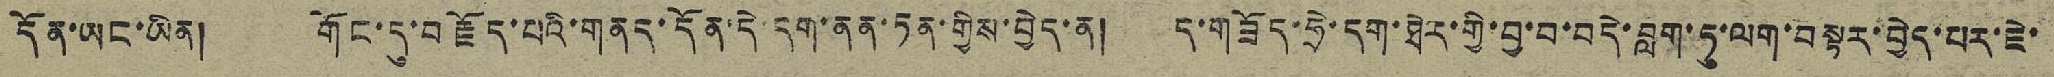དོན་ཡང་ཡིན། གོང་དུ་བརྗོད་པའི་གནད་དོན་དེ་དག་ནན་ཏན་གྱིས་བྱེད་ན། ད་གཟོད་ཧྲེ་དག་ཐེར་གྱི་བྱ་བ་བདེ་བླག་ཏུ་ལག་བསྟར་བྱེད་པར་ཇེ་
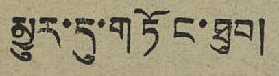མྱུར་དུ་གཏོང་ཐུབ།
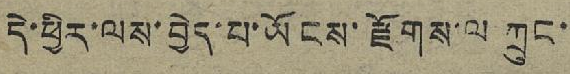དེ་ཕྱིར་ལས་བྱེད་པ་ཡོངས་རྫོགས་ལ་ཀྲུང་
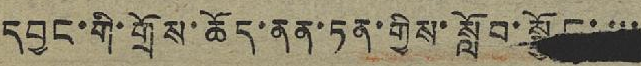དབྱང་གི་གྲོས་ཆོད་ནན་ཏན་གྱིས་སློབ་སྦྱོང་་་་
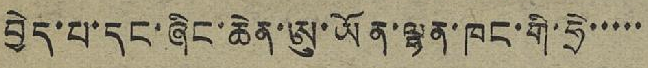བྱེད་པ་དང་ཞིང་ཆེན་ཨུ་ཡོན་ལྷན་ཁང་གི་ཧྲེ་་་་་
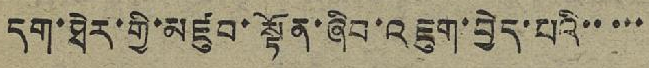དག་ཐེར་གྱི་མཛུབ་སྟོན་ཞིབ་འཇུག་བྱེད་པའི་་་་་
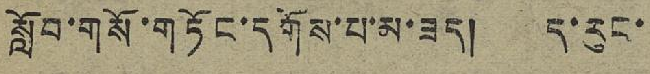སློབ་གསོ་གཏོང་དགོས་པ་མ་ཟད། ད་རུང་
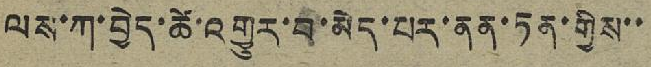ལས་ཀ་བྱེད་ཚེ་འགྱུར་བ་མེད་པར་ནན་ཏན་གྱིས་་
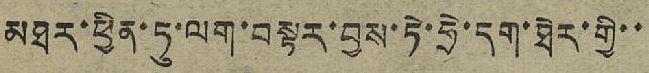མཐར་ཕྱིན་ཏུ་ལག་བསྟར་བྱས་ཏེ་ཧྲེ་དག་ཐེར་གྱི་་
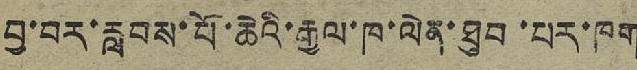བྱ་བར་རླབས་པོ་ཆེའི་རྒྱལ་ཁ་ལེན་ཐུབ་པར་ཁག
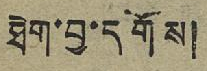ཐེག་བྱ་དགོས།
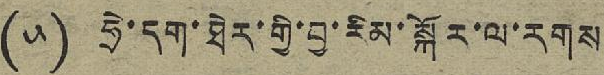(༥) ཧྲེ་དག་ཐེར་གྱི་བྱ་རིམ་སྐོར་ལ་རགས
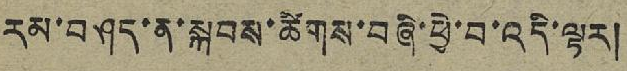རམ་བཤད་ན་སྐབས་ཚིགས་བཞི་ཕྱེ་བ་འདི་ལྟར།
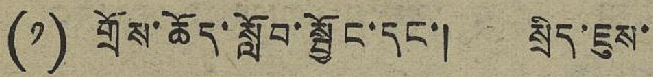(༡) གྲོས་ཆོད་སློབ་སྦྱོང་དང་། སྲིད་ཇུས་
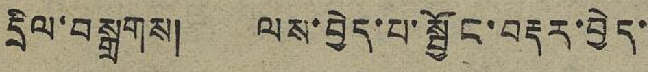དྲིལ་བསྒྲགས། ལས་བྱེད་པ་སྦྱོང་བརྡར་བྱེད་
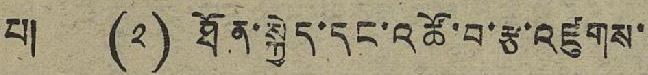པ། (༢) ཐོན་སྐྱེད་དང་འཚོ་བ་རྩ་འཛུགས་
